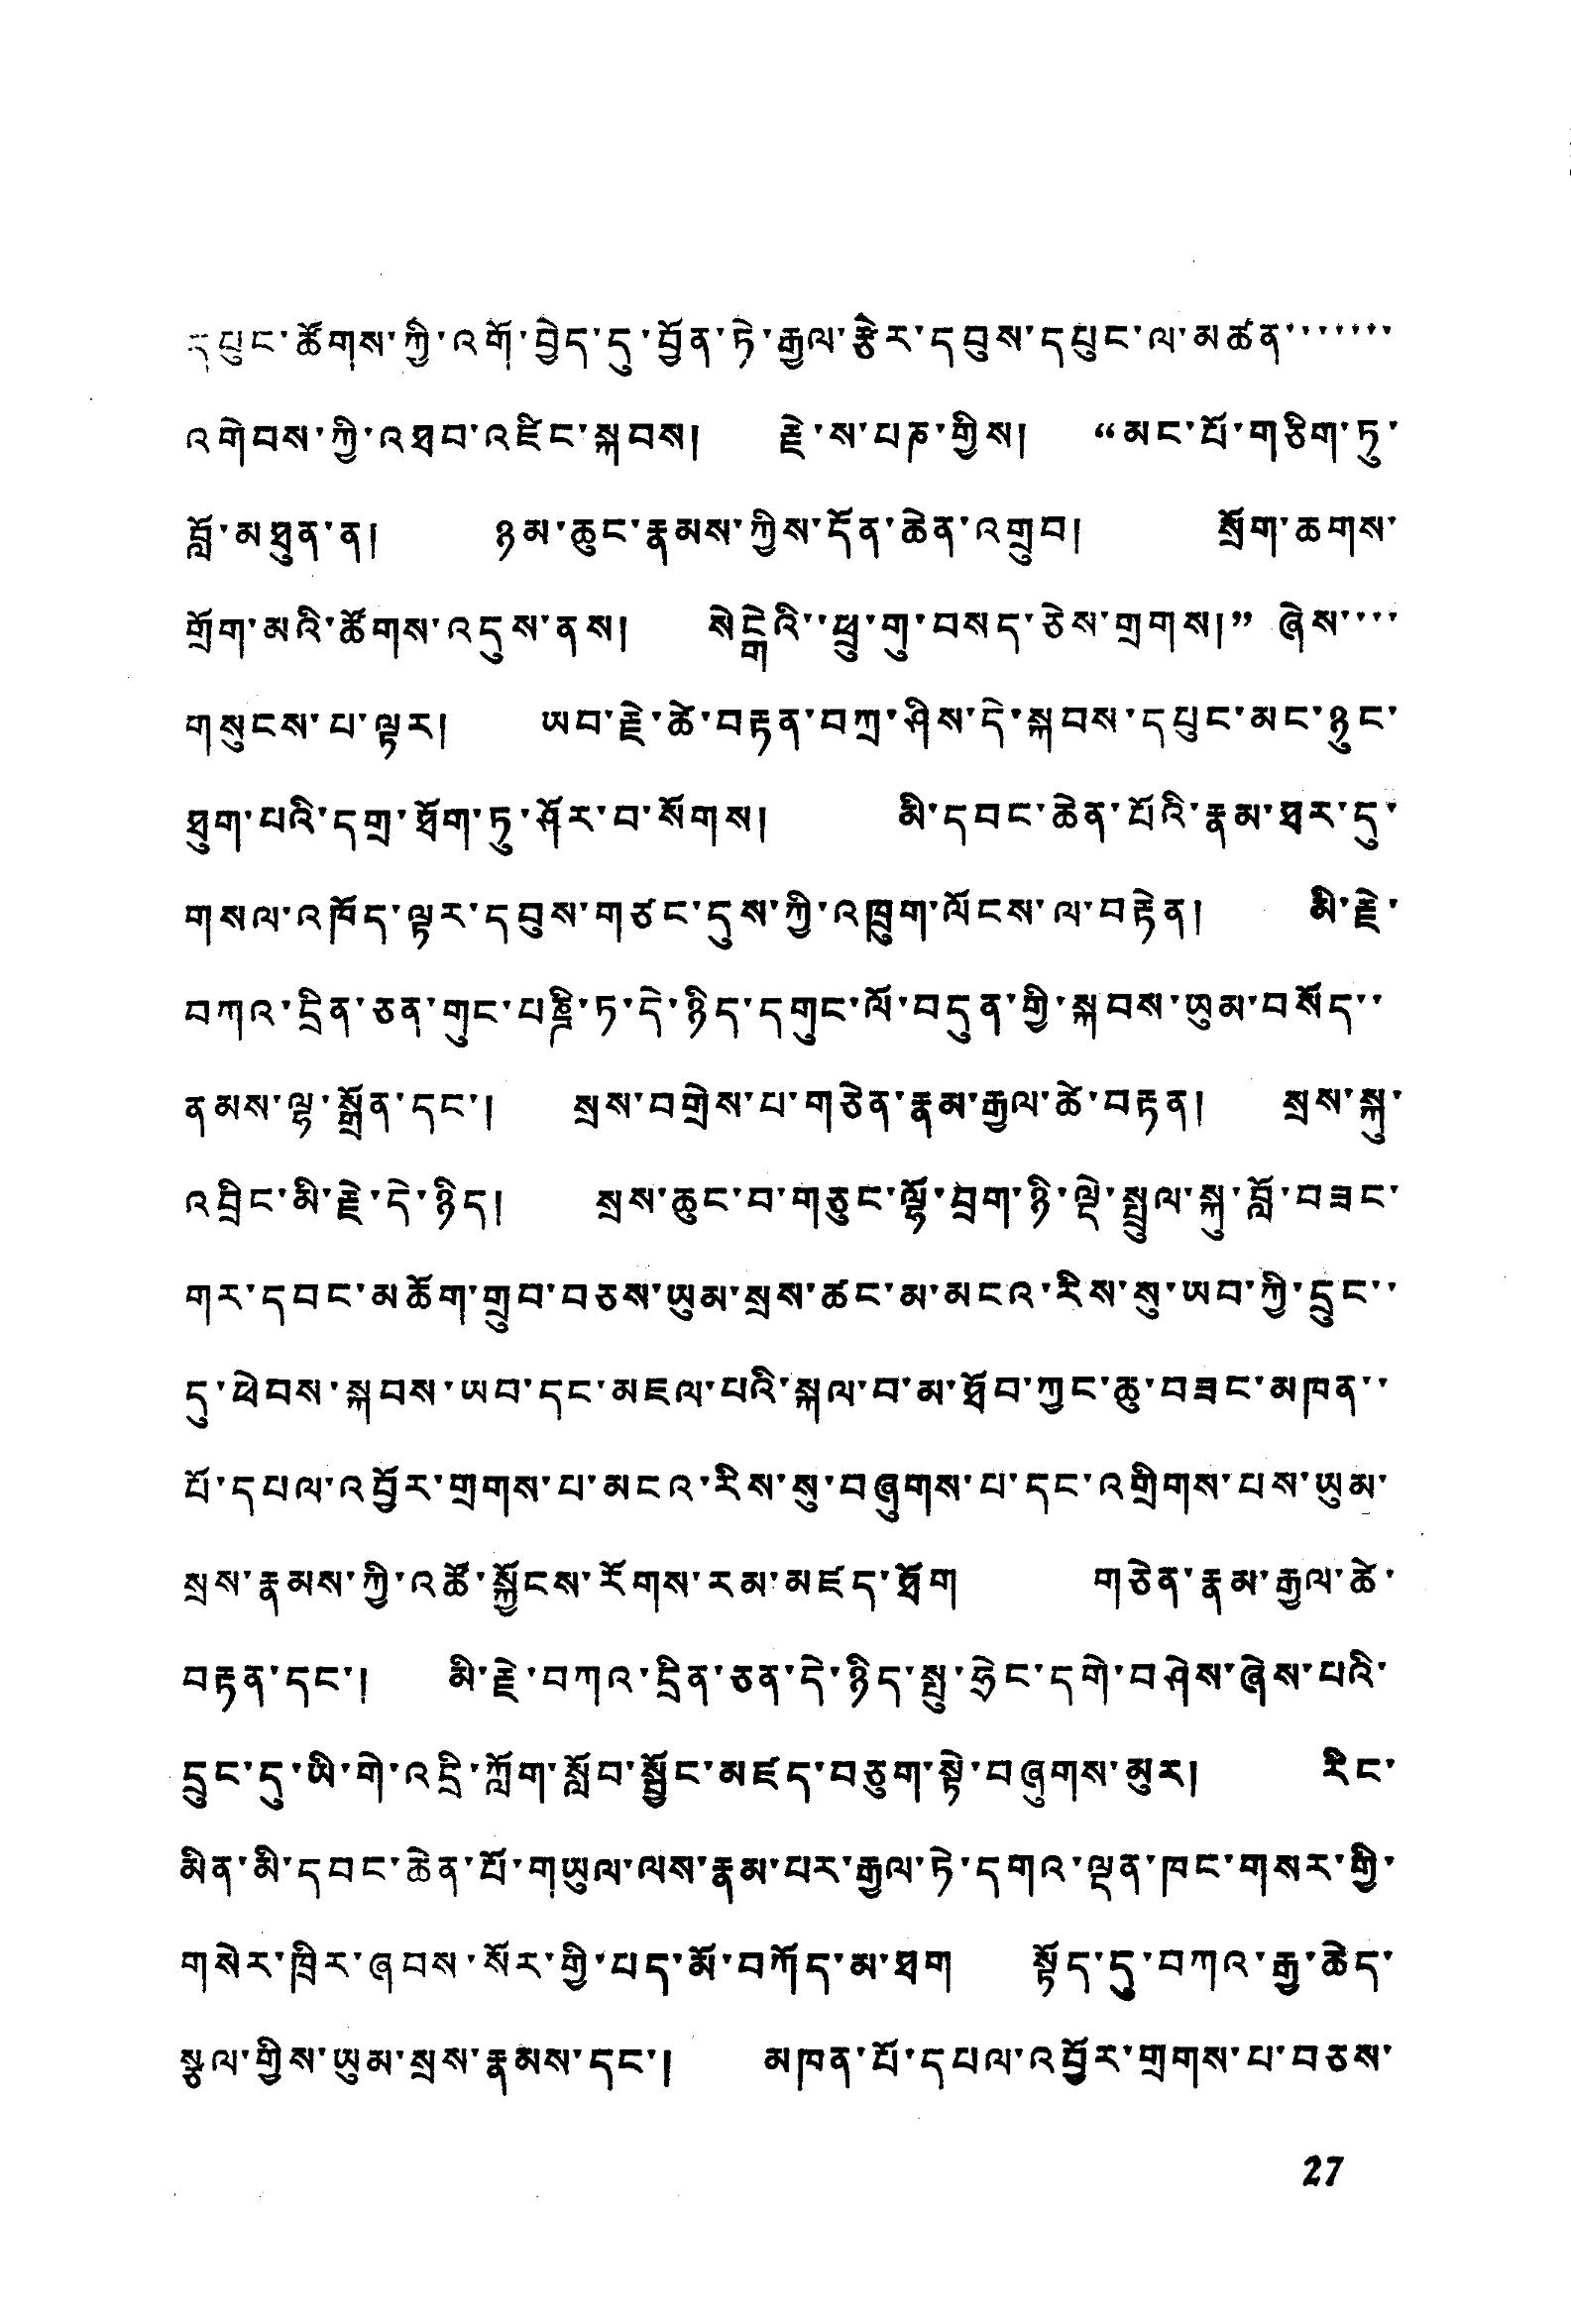དཔུང་ཚོགས་ཀྱི་འགོ་བྱེད་དུ་བྱོན་ཏེ་རྒྱལ་རྩེར་དབུས་དཔུང་ལ་མཚན་་་་་་་
འགེབས་ཀྱི་འཐབ་འཛིང་སྐབས། རྗེ་ས་པཎ་གྱིས། “མང་པོ་གཅིག་ཏུ་
བློ་མཐུན་ན། ཉམ་ཆུང་རྣམས་ཀྱིས་དོན་ཆེན་འགྲུབ། སྲོག་ཆགས་
གྲོག་མའི་ཚོགས་འདུས་ནས། སེངགེའི་ཕྲུ་གུ་བསད་ཅེས་གྲགས་།” ཞེས་
གསུངས་པ་ལྟར། ཡབ་རྗེ་ཚེ་བརྟན་བཀྲ་ཤིས་དེ་སྐབས་དཔུང་མང་ཉུང་
ཐུག་པའི་དགྲ་ཐོག་ཏུ་ཤོར་བ་སོགས། མི་དབང་ཆེན་པོའི་རྣམ་ཐར་དུ་
གསལ་འཁོད་ལྟར་དབུས་གཙང་དུས་ཀྱི་འཁྲུག་ལོངས་ལ་བརྟེན། མི་རྗེ་
བཀའ་དྲིན་ཅན་གུང་པཎྜི་ཏ་དེ་ཉིད་དགུང་ལོ་བདུན་གྱི་སྐབས་ཡུམ་བསོད་་
ནམས་ལྷ་སྒྲོན་དང་། སྲས་བགྲེས་པ་གཅེན་རྣམ་རྒྱལ་ཚེ་བརྟན། སྲས་སྐུ་
འབྲིང་མི་རྗེ་དེ་ཉིད། སྲས་ཆུང་བ་གཅུང་ལྷོ་བྲག་ཉི་ལྡེ་སྤྲུལ་སྐུ་བློ་བཟང་
གར་དབང་མཆོག་གྲུབ་བཅས་ཡུམ་སྲས་ཚང་མ་མངའ་རིས་སུ་ཡབ་ཀྱི་དྲུང་་
དུ་ཕེབས་སྐབས་ཡབ་དང་མཇལ་པའི་སྐལ་བ་མ་ཐོབ་ཀྱང་ཆུ་བཟང་མཁན་་
པོ་དཔལ་འབྱོར་གྲགས་པ་མངའ་རིས་སུ་བཞུགས་པ་དང་འགྲིགས་པས་ཡུམ་
སྲས་རྣམས་ཀྱི་འཚོ་སྐྱོངས་རོགས་རམ་མཛད་ཐོག གཅེན་རྣམ་རྒྱལ་ཚེ་
བརྟན་དང་། མི་རྗེ་བཀའ་དྲིན་ཅན་དེ་ཉིད་སྤུ་ཧྲེང་དགེ་བཤེས་ཞེས་པའི་
དྲུང་དུ་ཡི་གེ་འདྲི་ཀློག་སློབ་སྦྱོང་མཛད་བཅུག་སྟེ་བཞུགས་མུར་། རིང་
མིན་མི་དབང་ཆེན་པོ་གཡུལ་ལས་རྣམ་པར་རྒྱལ་ཏེ་དགའ་ལྡན་ཁང་གསར་གྱི་
གསེར་ཁྲིར་ཞབས་སོར་གྱི་པད་མོ་བཀོད་མ་ཐག སྟོད་དུ་བཀའ་རྒྱ་ཆེད་
སྩལ་གྱིས་ཡུམ་སྲས་རྣམས་དང་། མཁན་པོ་དཔལ་འབྱོར་གྲགས་པ་བཅས
27
